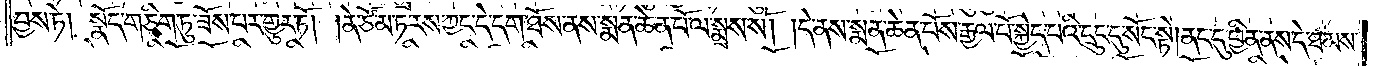བྱས་ཏེ། སྣོད་གཅིག་ཏུ་ཟོས་པར་གྱུར་ཏོ། །ནེ་ཙོ་མ་ཏ་རས་ཀྱང་དེ་དག་ཐོས་ནས་སྨན་ཆེན་པོ་ལ་སྨྲས་སོ། །དེ་ནས་སྨན་ཆེན་པོས་རྒྱལ་པོ་སྐྱེད་པའི་དྲུང་དུ་སོང་སྟེ། ནང་དུ་ཕྱིན་ནས་དེ་ཐམས་
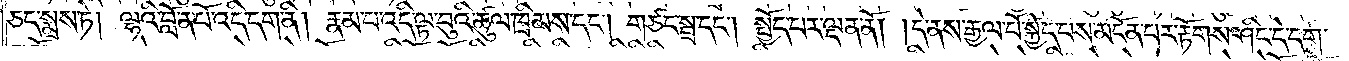ཅད་སྨྲས་ཏེ། ལྷའི་བློན་པོ་འདི་དག་ནི། རྣམ་པ་འདི་ལྟ་བུའི་ཚུལ་ཁྲིམས་དང༌། གཙང་སྦྲ་དང༌། སྤྱོད་པར་ལྡན་ནོ། །དེ་ནས་རྒྱལ་པོ་སྐྱེད་པས་མངོན་པར་རྟོགས་ཤིང་དེ་དག་
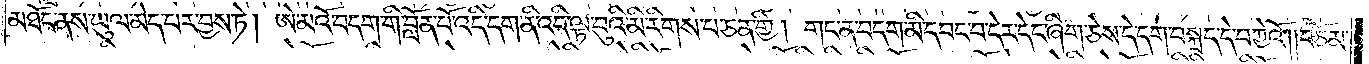མཐོང་ནས་ཡུལ་མེད་པར་བྱས་ཏེ། ཨེ་མའོ་བདག་གི་བློན་པོ་འདི་དག་ནི་འདི་ལྟ་བུའི་མི་རིགས་པ་ཅན་གྱི། གང་ན་བདག་མི་དབང་བ་དེར་དེང་ཞིག་ཅེས་དེ་དག་བསྐྲད་དེ་བཀྱེའོ། །བཅོམ་
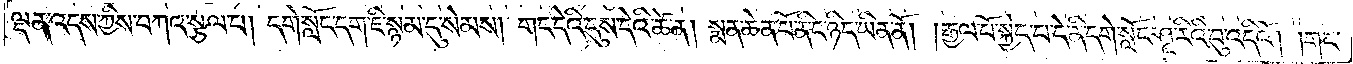ལྡན་འདས་ཀྱིས་བཀའ་སྩལ་པ། དགེ་སློང་དག་ཇི་སྙམ་དུ་སེམས། གང་དེའི་དུས་དེའི་ཚེ་ན། སྨན་ཆེན་པོ་ནི་ང་ཉིད་ཡིན་ནོ། །རྒྱལ་པོ་སྐྱེད་པ་དེ་ནི་དགེ་སློང་ཤཱ་རིའི་བུ་འདིའོ། །གང་
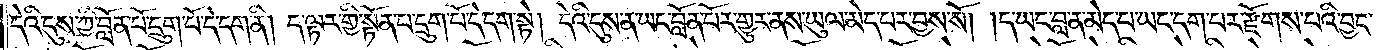དེའི་དུས་ཀྱི་བློན་པོ་དྲུག་པོ་དེ་དག་ནི། ད་ལྟར་གྱི་སྟོན་པ་དྲུག་པོ་དེ་དག་སྟེ། དེའི་དུས་ན་ཡང་བློན་པོར་གྱུར་ནས་ཡུལ་མེད་པར་བྱས་སོས། །ད་ཡང་བླ་ན་མེད་པ་ཡང་དག་པར་རྫོགས་པའི་བྱང་
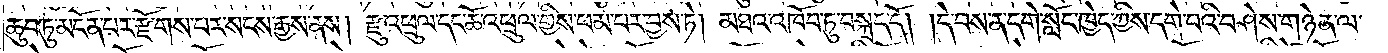ཆུབ་ཏུ་མངོན་པར་རྫོགས་པར་སངས་རྒྱས་ནས། རྫུ་འཕྲུལ་དང་ཆོ་འཕྲུལ་གྱིས་ཕམ་པར་བྱས་ཏེ། མཐའ་འཁོབ་ཏུ་བསྐྲད་དོ། །དེ་བས་ན་དགེ་སློང་ཁྱེད་ཀྱིས་དགེ་བའི་བཤེས་གཉེན་ལ་
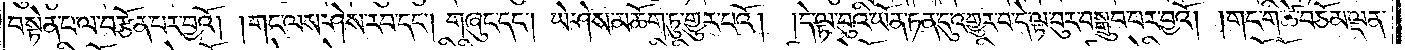བསྟེན་པ་ལ་བརྩོན་པར་བྱའོ། །གང་ལས་ཤེས་རབ་དང༌། གཞུང་དང༌། ཡེ་ཤེས་མཆོག་ཏུ་གྱུར་པའོ། །དེ་ལྟ་བུའི་ཡོན་ཏན་དུ་འགྱུར་བ་དེ་ལྟ་བུར་བསྒྲུབ་པར་བྱའོ། །གང་གི་ཚེ་བཅོམ་ལྡན་
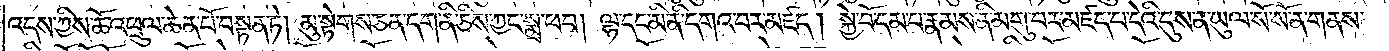འདས་ཀྱིས་ཆོ་འཕྲུལ་ཆེན་པོ་བསྟན་ཏེ། མུ་སྟེགས་ཅན་དག་ནི་ཅིས་ཀྱང་སྨྲ་ཕབ། ལྷ་དང་མི་ནི་དགའ་བར་མཛད། སྐྱེ་བོ་དམ་པ་རྣམས་ནི་མགུ་བར་མཛད་པ་དེའི་དུས་ན་ཡུལ་སོ་སོ་ན་གནས་
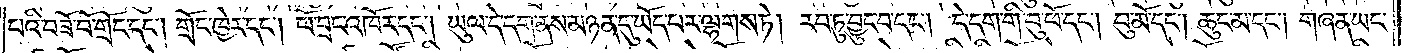པའི་བཟོ་བོ་གྲོང་དང༌། གྲོང་ཁྱེར་དང༌། ཕོ་བྲང་འཁོར་དང༌། ཡུལ་དེ་དག་ནས་མཉན་དུ་ཡོད་པར་ལྷགས་ཏེ། རབ་ཏུ་བྱུང་བ་དང༌། དེ་དག་གི་བུ་ཕོ་དང༌། བུ་མོ་དང༌། ཆུང་མ་དང༌། གཞན་ཡང་
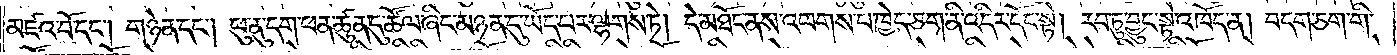མཛའ་བོ་དང༌། གཉེན་དང༌། ཕུ་ནུ་དག་ཕན་ཚུན་དུ་ཚོལ་ཞིང་མཉན་དུ་ཡོད་པར་ལྷགས་ཏེ། དེ་མཐོང་ནས་འཕགས་པ་ཁྱེད་ཅག་ནི་འདིར་དོང་སྟེ། རབ་ཏུ་བྱུང་སྟེ་འཁོད་ན། བདག་ཅག་གི་
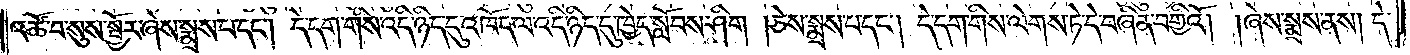འཚོ་བ་སུས་སྦྱོར་ཞེས་སྨྲས་པ་དང༌། དེ་དག་གིས་འདི་ཉིད་དུ་འཁོད་ལ་འདི་ཉིད་དུ་ཁྱེད་སློབས་ཤིག །ཅེས་སྨྲས་པ་དང༌། དེ་དག་གིས་ལེགས་ཏེ་དེ་བཞིན་བགྱིའོ། །ཞེས་སྨྲས་ནས། དེ་
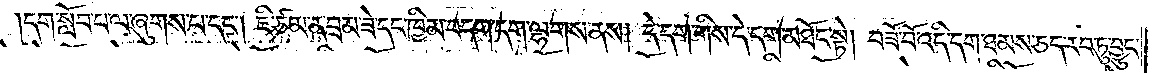དག་སློབ་པ་ལ་ཞུགས་པ་དང༌། ཇི་ཙམ་ན་བྲམ་ཟེ་དང་ཁྱིམ་བདག་དག་ལྷགས་ནས། དེ་དག་གིས་དེ་དག་མཐོང་སྟེ། བཟོ་བོ་འདི་དག་ཐམས་ཅད་རབ་ཏུ་བྱུང་
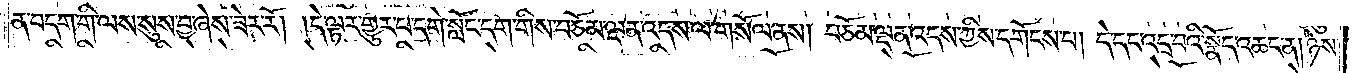ན་བདག་གི་ལས་སུས་བྱ་ཞེས་ཟེར་རོ། །དེ་ལྟར་གྱུར་པ་དགེ་སློང་དག་གིས་བཅོམ་ལྡན་འདས་ལ་གསོལ་ནས། བཅོམ་ལྡན་འདས་ཀྱིས་དགོངས་པ། དེ་དང་འདྲ་བའི་སྣོད་འཆང་ན། ཉེས་
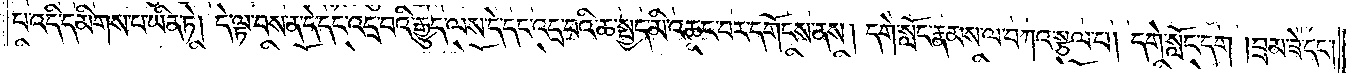པ་འདི་དམིགས་པ་ཡིན་ཏེ། དེ་ལྟ་བས་ན་དེ་དང་འདྲ་བའི་རྒྱུད་ལས་དེ་དང་འདྲ་བའི་ཆ་སྤྱད་མི་འཆང་བར་དགོངས་ནས། དགེ་སློང་རྣམས་ལ་བཀའ་སྩལ་པ། དགེ་སློང་དག །བྲམ་ཟེ་དང༌།
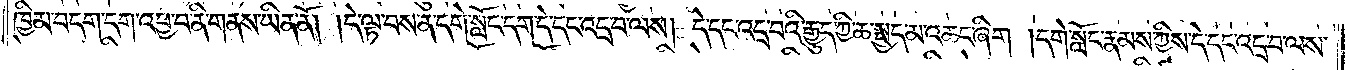ཁྱིམ་བདག་དག་འཕྱ་བ་ནི་གནས་ཡིན་ནོ། །དེ་ལྟ་བས་ན་དགེ་སློང་དག་དེ་དང་འདྲ་བ་ལས། དེ་དང་འདྲ་བའི་རྒྱུད་ཀྱི་ཆ་སྤྱད་མ་འཆང་ཞིག །དགེ་སློང་རྣམས་ཀྱིས་དེ་དང་འདྲ་བ་ལས་
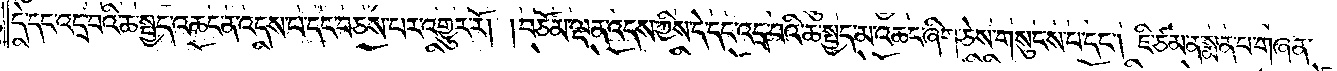དེ་དང་འདྲ་བའི་ཆ་སྤྱད་འཆང་ན་འདས་པ་དང་བཅས་པར་འགྱུར་རོ། །བཅོམ་ལྡན་འདས་ཀྱིས་དེ་དང་འདྲ་བའི་ཆ་སྤྱད་མ་འཆང་ཞིག་ཅེས་གསུངས་པ་དང༌། ཇི་ཙམ་ན་སྨན་པ་གཞན་
